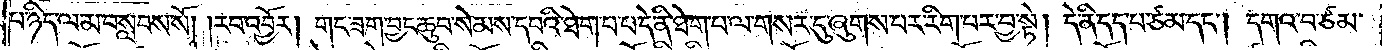པ་ཉིད་ལ་མ་བསླབས་སོ། །རབ་འབྱོར། གང་ཟག་བྱང་ཆུབ་སེམས་དཔའི་ཐེག་པ་པ་དེ་ནི་ཐེག་པ་ལ་གསར་དུ་ཞུགས་པར་རིག་པར་བྱ་སྟེ། དེ་ནི་དད་པ་ཙམ་དང༌། དགའ་བ་ཙམ་
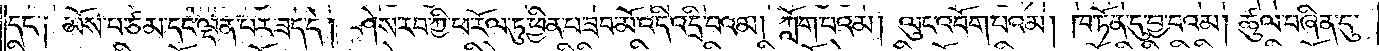དང༌། མོས་པ་ཙམ་དང་ལྡན་པར་ཟད་དེ། །ཤེས་རབ་ཀྱི་ཕ་རོལ་ཏུ་ཕྱིན་པ་ཟབ་མོ་འདི་འདྲི་བའམ། ཀློག་པའམ། ལུང་འབོག་པའམ། ཁ་ཏོན་དུ་བྱ་བའམ། ཚུལ་བཞིན་དུ་
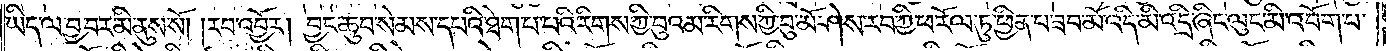ཡིད་ལ་བྱ་བར་མི་ནུས་སོ། །རབ་འབྱོར། བྱང་ཆུབ་སེམས་དཔའི་ཐེག་པ་པའི་རིགས་ཀྱི་བུའམ་རིགས་ཀྱི་བུ་མོ་ཤེས་རབ་ཀྱི་ཕ་རོལ་ཏུ་ཕྱིན་པ་ཟབ་མོ་འདི་མི་འདྲི་ཞིང་ལུང་མི་འབོག་པ་
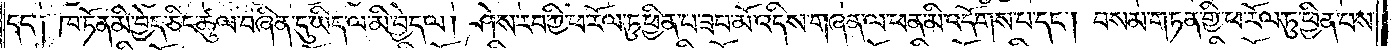དང༌། ཁ་ཏོན་མི་བྱེད་ཅིང་ཚུལ་བཞིན་དུ་ཡིད་ལ་མི་བྱེད་ལ། ཤེས་རབ་ཀྱི་ཕ་རོལ་ཏུ་ཕྱིན་པ་ཟབ་མོ་འདིས་གཞན་ལ་ཕན་མི་འདོགས་པ་དང༌། བསམ་གཏན་གྱི་ཕ་རོལ་ཏུ་ཕྱིན་པས་
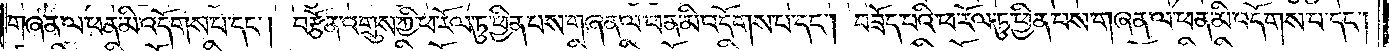གཞན་ལ་ཕན་མི་འདོགས་པ་དང༌། བརྩོན་འགྲུས་ཀྱི་ཕ་རོལ་ཏུ་ཕྱིན་པས་གཞན་ལ་ཕན་མི་འདོགས་པ་དང༌། བཟོད་པའི་ཕ་རོལ་ཏུ་ཕྱིན་པས་གཞན་ལ་ཕན་མི་འདོགས་པ་དང༌།
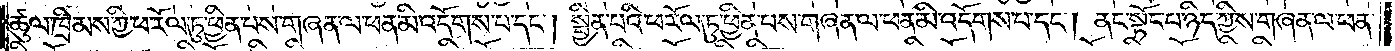ཚུལ་ཁྲིམས་ཀྱི་ཕ་རོལ་ཏུ་ཕྱིན་པས་གཞན་ལ་ཕན་མི་འདོགས་པ་དང༌། སྦྱིན་པའི་ཕ་རོལ་ཏུ་ཕྱིན་པས་གཞན་ལ་ཕན་མི་འདོགས་པ་དང༌། ནང་སྟོང་པ་ཉིད་ཀྱིས་གཞན་ལ་ཕན་
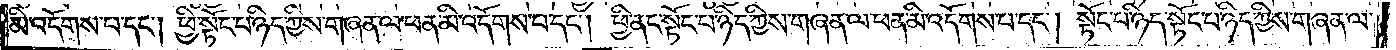མི་འདོགས་པ་དང༌། ཕྱི་སྟོང་པ་ཉིད་ཀྱིས་གཞན་ལ་ཕན་མི་འདོགས་པ་དང༌། ཕྱི་ནང་སྟོང་པ་ཉིད་ཀྱིས་གཞན་ལ་ཕན་མི་འདོགས་པ་དང༌། སྟོང་པ་ཉིད་སྟོང་པ་ཉིད་ཀྱིས་གཞན་ལ་
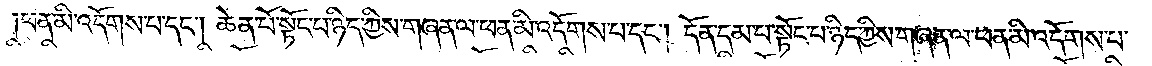ཕན་མི་འདོགས་པ་དང༌། ཆེན་པོ་སྟོང་པ་ཉིད་ཀྱིས་གཞན་ལ་ཕན་མི་འདོགས་པ་དང༌། དོན་དམ་པ་སྟོང་པ་ཉིད་ཀྱིས་གཞན་ལ་ཕན་མི་འདོགས་པ་
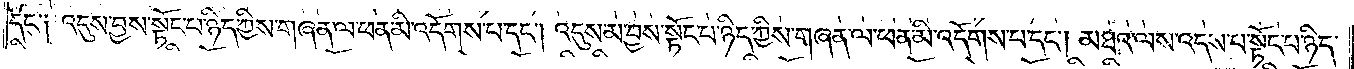དང༌༑ འདུས་བྱས་སྟོང་པ་ཉིད་ཀྱིས་གཞན་ལ་ཕན་མི་འདོགས་པ་དང༌། འདུས་མ་བྱས་སྟོང་པ་ཉིད་ཀྱིས་གཞན་ལ་ཕན་མི་འདོགས་པ་དང༌། མཐའ་ལས་འདས་པ་སྟོང་པ་ཉིད་
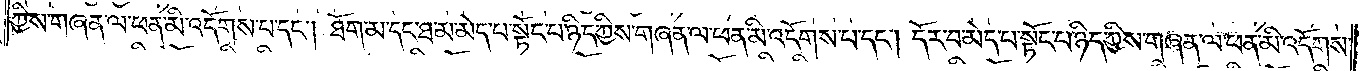ཀྱིས་གཞན་ལ་ཕན་མི་འདོགས་པ་དང༌། ཐོག་མ་དང་ཐ་མ་མེད་པ་སྟོང་པ་ཉིད་ཀྱིས་གཞན་ལ་ཕན་མི་འདོགས་པ་དང༌། དོར་བ་མེད་པ་སྟོང་པ་ཉིད་ཀྱིས་གཞན་ལ་ཕན་མི་འདོགས་
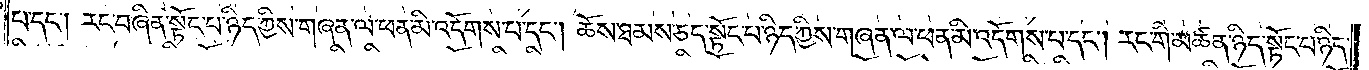པ་དང༌། རང་བཞིན་སྟོང་པ་ཉིད་ཀྱིས་གཞན་ལ་ཕན་མི་འདོགས་པ་དང༌། ཆོས་ཐམས་ཅད་སྟོང་པ་ཉིད་ཀྱིས་གཞན་ལ་ཕན་མི་འདོགས་པ་དང༌། རང་གི་མཚན་ཉིད་སྟོང་པ་ཉིད་
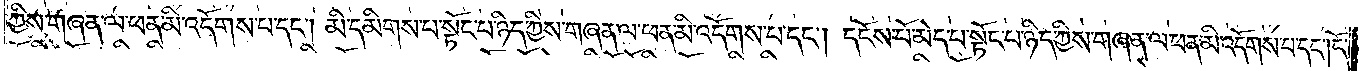ཀྱིས་གཞན་ལ་ཕན་མི་འདོགས་པ་དང༌། མི་དམིགས་པ་སྟོང་པ་ཉིད་ཀྱིས་གཞན་ལ་ཕན་མི་འདོགས་པ་དང༌། དངོས་པོ་མེད་པ་སྟོང་པ་ཉིད་ཀྱིས་གཞན་ལ་ཕན་མི་འདོགས་པ་དང༌། ངོ་
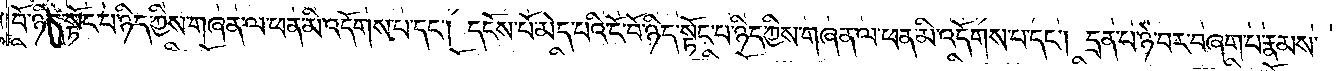བོ་ཉིད་སྟོང་པ་ཉིད་ཀྱིས་གཞན་ལ་ཕན་མི་འདོགས་པ་དང༌། དངོས་པོ་མེད་པའི་ངོ་བོ་ཉིད་སྟོང་པ་ཉིད་ཀྱིས་གཞན་ལ་ཕན་མི་འདོགས་པ་དང༌། དྲན་པ་ཉེ་བར་བཞག་པ་རྣམས་
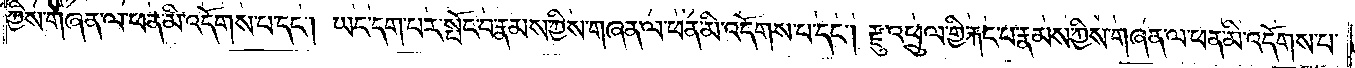ཀྱིས་གཞན་ལ་ཕན་མི་འདོགས་པ་དང༌། ཡང་དག་པར་སྤོང་བ་རྣམས་ཀྱིས་གཞན་ལ་ཕན་མི་འདོགས་པ་དང༌། རྫུ་འཕྲུལ་གྱིས་རྐང་པ་རྣམས་ཀྱིས་གཞན་ལ་ཕན་མི་འདོགས་པ་
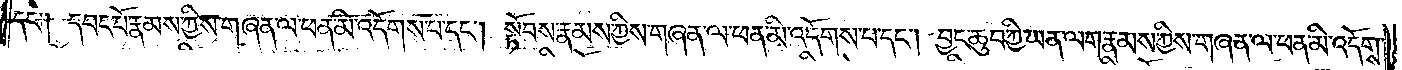དང༌། དབང་པོ་རྣམས་ཀྱིས་གཞན་ལ་ཕན་མི་འདོགས་པ་དང༌། སྟོབས་རྣམས་ཀྱིས་གཞན་ལ་ཕན་མི་འདོགས་པ་དང༌། བྱང་ཆུབ་ཀྱི་ཡན་ལག་རྣམས་ཀྱིས་གཞན་ལ་ཕན་མི་འདོགས་
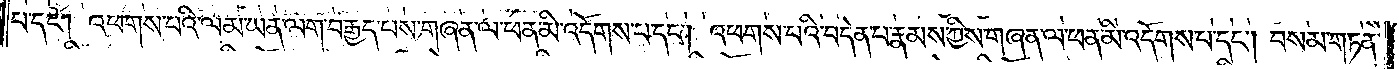པ་དང༌། འཕགས་པའི་ལམ་ཡན་ལག་བརྒྱད་པས་གཞན་ལ་ཕན་མི་འདོགས་པ་དང༌། འཕགས་པའི་བདེན་པ་རྣམས་ཀྱིས་གཞན་ལ་ཕན་མི་འདོགས་པ་དང༌། བསམ་གཏན་
